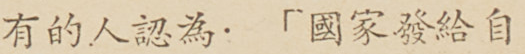有的人認為：「國家發給自
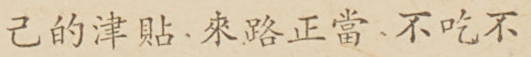己的津貼，來路正當，不吃不
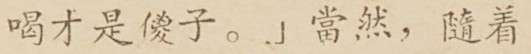喝才是傻子。」當然，隨着
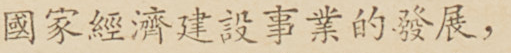國家經濟建設事業的發展，
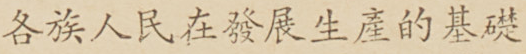各族人民在發展生產的基礎
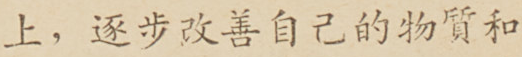上，逐步改善自己的物質和
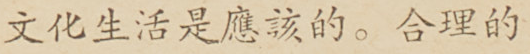文化生活是應該的。合理的
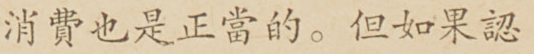消費也是正當的。但如果認
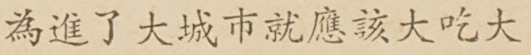為進了大城市就應該大吃大
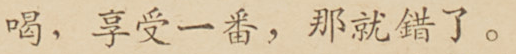喝，享受一番，那就錯了。
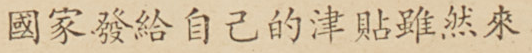國家發給自己的津貼雖然來
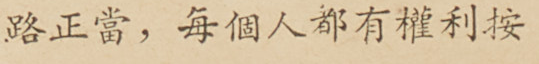路正當，每個人都有權利按
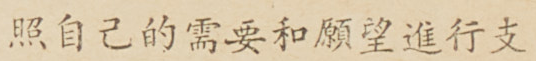照自己的需要和願望進行支配
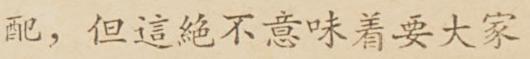配，但這絕不意味着要大家
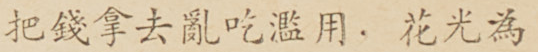把錢拿去亂吃濫用，花光為
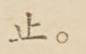止。
